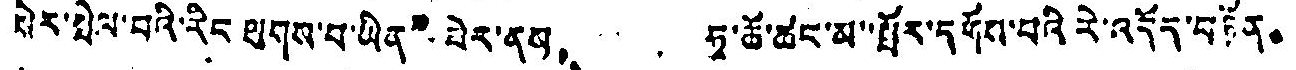པེར་སྤེལ་བའི་རིང ལུགས་པ་ཡིན”ཟེར་ནས， ཧྭ་ཆོ་ཚང་མ་སྤོར་དགོས་པའི་རེ་འདོད་བཏོན。
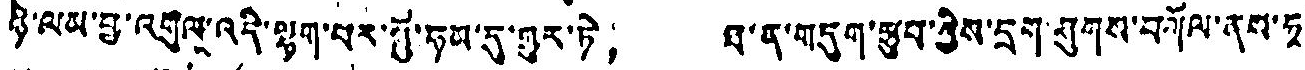ཉེ་ལམ་བྱ་འགུལ་འདི་ལྷག་པར་ཀྱོ་ཧམ་དུ་གྱུར་ཏེ། ཐ་ན་གདུག་ཕྩུབ་ཀྱིས་དྲག་ཤུགས་བཀོལ་ནས་ཧྭ་
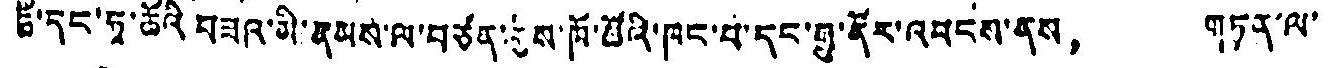ཆོ་དང་ཧྭ་ཆོའི བཟའ་མི་རྣམས་ལ་བཙན་རྒྱས་ཁོ་ཚོའི་ཁང་པ་དང་རྒྱུ་ནོར་འབངས་ནས， གཏན་ལ་
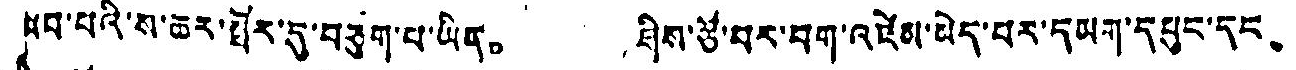ཁབ་པའི་ས་ཆར་སོར་དུ་བཅུག་པ་ཡིན。 ཤིས་ཙེ་བར་བག་འཛེམ་མེད་པར་དམག་དཔུང་དང、
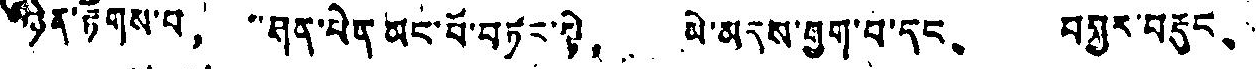ཉིན་རྟགས་པ， ་ཤན་པེན མང་པོ་བཏང་སྟེ， མེ་མདས་བྱུག་པ་དང、 བསྐྱར་བརྡུང、
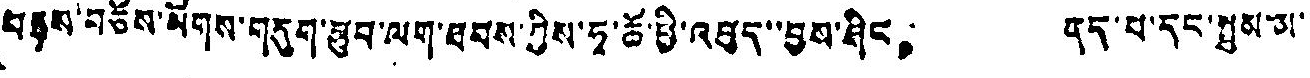བརྟས་བཅོས་སོགས་གདུག་ཐུབ་ལག་ཐབས་ཀྱིས་ཧྭ་ཆོ་ཕྱི་འབུད་་བྱས་ཤིང， ནད་པ་དང་སྦྲུམ་མ་
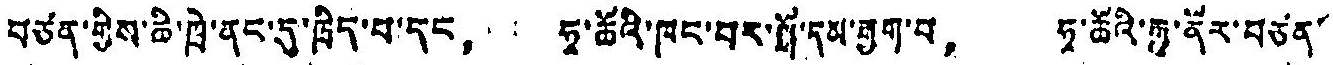བཙན་གྱིས་ཆི་ཁྲེ་ནང་དུ་ཁྲིད་པ་དང， ཧྭ་ཆོའི་ཁང་བར་སྒོ་དམ་རྒྱག་པ， ཧྭ་ཆོའི་རྒྱུ་ནོར་བཙན་
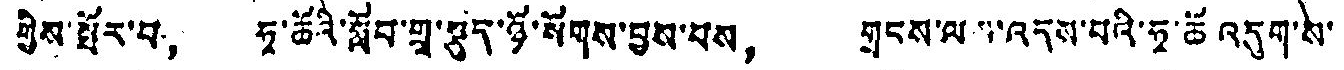གྱིས་སྤོར་བ， ཧྭ་ཆོའི་སློབ་གྲྭ་སྡུད་ཉོ་སོགས་བྱས་པས， གྲངས་ལས་འདས་པའི་ཧྭ་ཆོ་ འདུག་ས་
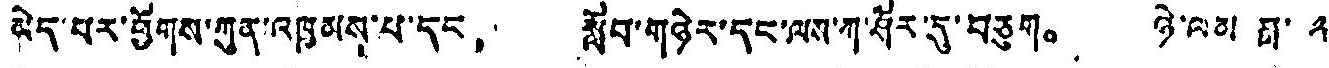མེད་པར་ཕྱོགས་ཀུན་འཁྱམས་པ་དང， སློབ་གཉེར་དང་ལས་ཀ་ཤོར་དུ་བཅུག。 ཉེ་ལམ ཟླ་ ༢
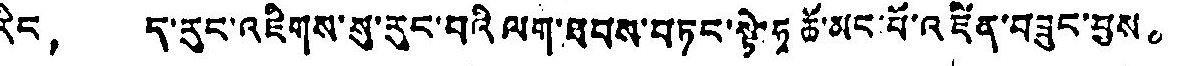རིང， ད་རུང་འཇིགས་སུ་རུང་བའི ལག་ཐབས་བཏང་སྟེ་ཧྭ་ཆོ་མང་པོ་འཛིན་བཟུང་བྱས。
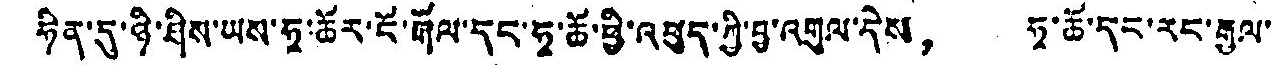ཧིན་དུ་ཉི་ཤིས་ཡས་ཧྭ་ཚོར་ངོ་རྒོལ་དང་ཧྭ་ཆོ་ཕྱི་འཕུད་ཀྱི་བྱ་འགུལ་དེས， ཧྭ་ཆོ་དང་རང་རྒྱལ་
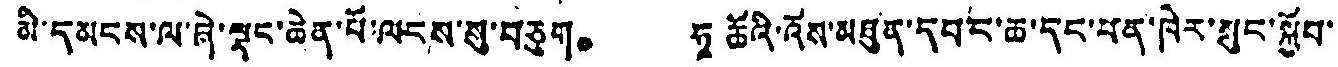མི་དམངས་ལ་ཞེ་ལྡང་ཆེན་པོ་ལངས་སུ་བཅུག。 ཧྭ ཆོའི་འོས་མཐུན་དབང་ཆ་དང་པན་ཁེར་སྲུང་སྐྱོབ་
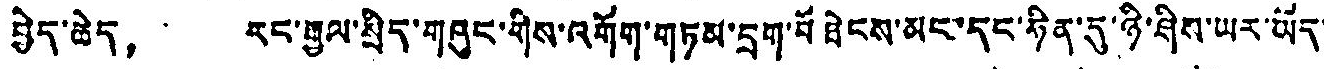བྱེད་ཆེད， རང་རྒྱལ་སྲིད་གཞུང་གིས་འགོག་གཏམ་དྲག་པོ ཐེངས་མང་དང་ཉིན་དུ་ཉི་ཤིས་ཡར་ཡོད་
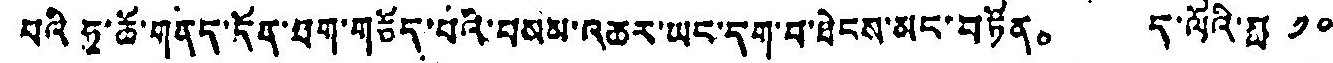པའི ཧྭ་ཆོ་གནད་དོན་ཐག་གཅོད་པའི་བསམ་འཆར་ཡང་དག་བ་ཐེངས་མང་བཏོན。 ད་ལོའི་ཟླ ༡༠
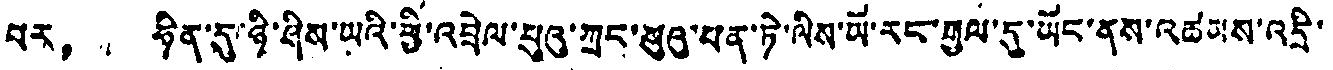པར， ཧིན་དུ་ཉི་ཤིས་ཡའི་ཕྱི་འབྲེལ་པུའུ་ཀྲང་སུའུ་པན་ཏེ་ལིས་ཡོ་རང་རྒྱལ་དུ་ཡོང་ནས་འཚམས་འདྲི་
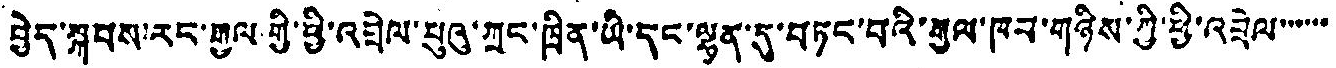བྱེད་སྐབས་རང་རྒྱལ གྱི་ཕྱི་འབྲེལ་པུའུ་ཀྲང་ཁྲིན་ཡི་དང་ལྷན་དུ་བཏང་བའི་རྒྱལ་ཁབ་གཉིས་ཀྱི་ཕྱི་འབྲེལ་་་་་་
